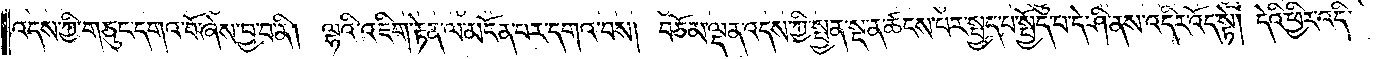འདས་ཀྱི་གཅུང་དགའ་བོ་ཞེས་བྱ་བ་ནི། ལྷའི་འཇིག་རྟེན་ལ་མངོན་པར་དགའ་བས། བཅོམ་ལྡན་འདས་ཀྱི་སྤྱན་སྔ་ན་ཚངས་པར་སྤྱད་པ་སྤྱོད་པ་དེ་ཤི་ནས་འདིར་འོད་སྟེ། དེའི་ཕྱིར་འདི་
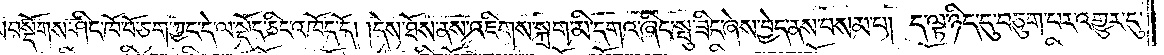བསྡོགས་ཤིང་ཁོ་བོ་ཅག་ཀྱང་དེ་ལ་སྡོད་ཅིང་འཁོད་དོ། །དེས་ཐོས་ནས་འཇིགས་སྐྲག་མི་དགའ་ཞིང་སྤུ་ཟིང་ཞེས་བྱེད་ནས་བསམ་པ། ད་ལྟ་ཉིད་དུ་བཅུག་པར་འགྱུར་དུ་
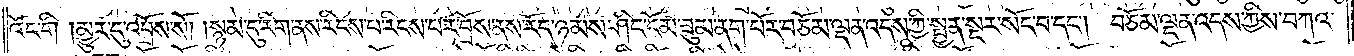འོང་གི །མྱུར་དུ་འབྲོས་སོ། །སྙམ་དུ་རིག་ནས་རིངས་པ་རིངས་པར་བྲོས་ནས་རོད་ཉམས་ཤིང་དོམ་ཟུམ་ནག་པོར་བཅོམ་ལྡན་འདས་ཀྱི་སྤྱན་སྔར་སོང་བ་དང༌། བཅོམ་ལྡན་འདས་ཀྱིས་བཀའ་
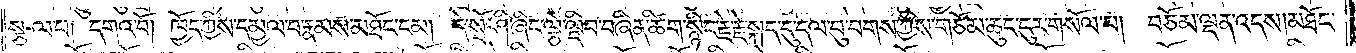སྩལ་པ། དགའ་བོ། ཁྱོད་ཀྱིས་དམྱལ་བ་རྣམས་མཐོང་ངམ། དེ་སྲོ་ཤི་ཞིང་ལྕེ་ལྡིབ་བཞིན་ཚིག་སྙིང་རྗེ་རྗེ་སྐད་དུ་དལ་བུ་བགས་ཀྱིས་གཅོམ་ཆུང་ངུར་གསོལ་པ། བཅོམ་ལྡན་འདས། མཐོང་
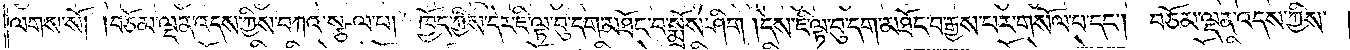ལགས་སོ། །བཅོམ་ལྡན་འདས་ཀྱིས་བཀའ་སྩལ་པ། ཁྱོད་ཀྱིས་དེར་ཇི་ལྟ་བུ་དག་མཐོང་བ་སྨྲོས་ཤིག །དེས་ཇི་ལྟ་བུ་དག་མཐོང་བ་རྒྱས་པར་གསོལ་པ་དང༌། བཅོམ་ལྡན་འདས་ཀྱིས་
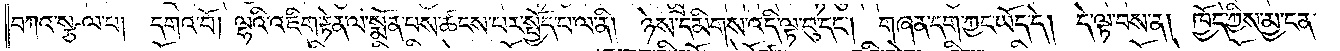བཀའ་སྩལ་པ། དགའ་བོ། ལྷའི་འཇིག་རྟེན་ལ་སྨོན་པས་ཚངས་པར་སྤྱོད་པ་ལ་ནི། ཉེས་དམིགས་འདི་ལྟ་བུ་དང༌། གཞན་དག་ཀྱང་ཡོད་དེ། དེ་ལྟ་བས་ན། ཁྱོད་ཀྱིས་མྱ་ངན་
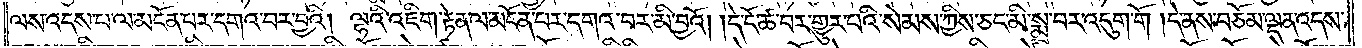ལས་འདས་པ་ལ་མངོན་པར་དགའ་བར་བྱའི། ལྷའི་འཇིག་རྟེན་ལ་མངོན་པར་དགའ་བར་མི་བྱའོ། །དེ་ངོ་ཚ་བར་གྱུར་པའི་སེམས་ཀྱིས་ཅང་མི་སྨྲ་བར་འདུག་གོ །དེ་ནས་བཅོམ་ལྡན་འདས་
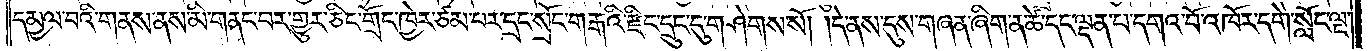དམྱལ་བའི་གནས་ནས་མི་གནང་བར་གྱུར་ཅིང་གྲོང་ཁྱེར་ཙམ་པར་དྲང་སྲོང་ག་རྒའི་རྫིང་དྲུང་དུ་གཤེགས་སོ། །དེ་ནས་དུས་གཞན་ཞིག་ན་ཚེ་དང་ལྡན་པ་དགའ་བོ་འཁོར་དགེ་སློང་ལྔ་
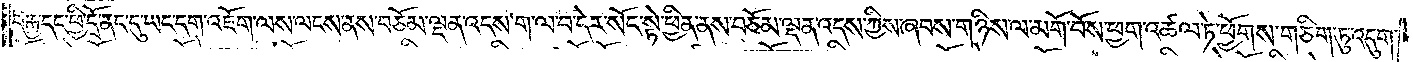བརྒྱ་དང་ཕྱི་དྲོ་ནང་དུ་ཡང་དག་འཇོག་ལས་ལངས་ནས་བཅོམ་ལྡན་འདས་ག་ལ་བ་དེར་སོང་སྟེ་ཕྱིན་ནས་བཅོམ་ལྡན་འདས་ཀྱིས་ཞབས་གཉིས་ལ་མགོ་བོས་ཕྱག་འཚལ་ཏེ་ཕྱོགས་གཅིག་ཏུ་འདུག་
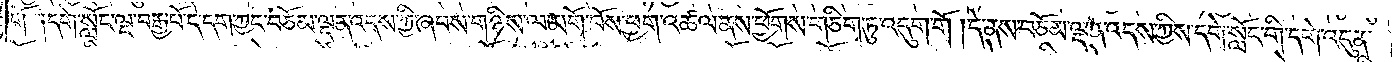གོ །དགེ་སློང་ལྔ་བརྒྱ་པོ་དེ་དག་ཀྱང་བཅོམ་ལྡན་འདས་ཀྱི་ཞབས་གཉིས་ལ་མགོ་བོས་ཕྱག་འཚལ་ནས་ཕྱོགས་གཅིག་ཏུ་འདུག་གོ །དེ་ནས་བཅོམ་ལྡན་འདས་ཀྱིས་དགེ་སློང་གི་དགེ་འདུན་
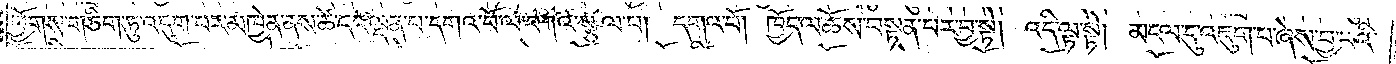ཕྱོགས་གཅིག་ཏུ་འདུག་པར་མཁྱེན་ནས་ཚེ་དང་ལྡན་པ་དགའ་བོ་ལ་བཀའ་སྩལ་པ། དགའ་བོ། ཁྱོད་ལ་ཆོས་བསྟན་པར་བྱ་སྟེ། འདི་ལྟ་སྟེ། མངལ་དུ་འཇུག་པ་ཞེས་བྱ་བའི་
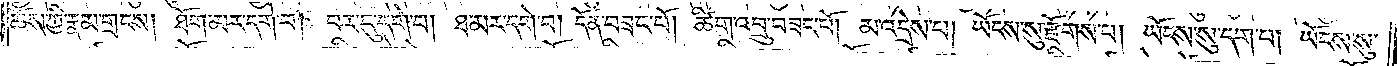ཆོས་ཀྱི་རྣམ་གྲངས། ཐོག་མར་དགེ་བ། བར་དུ་དགེ་བ། ཐ་མར་དགེ་བ། དོན་བཟང་པོ། ཚིག་འབྲུ་བཟང་པོ། མ་འདྲེས་པ། ཡོངས་སུ་རྫོགས་པ། ཡོངས་སུ་དག་པ། ཡོངས་སུ་
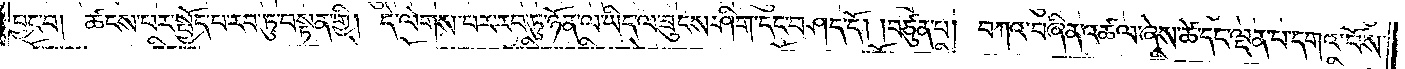བྱང་བ། ཚངས་པར་སྤྱོད་པ་རབ་ཏུ་བསྟན་གྱི། དེ་ལེགས་པར་རབ་ཏུ་ཉོན་ལ་ཡིད་ལ་ཟུངས་ཤིག་དང་བཤད་དོ། །བཙུན་པ། བཀའ་བཞིན་འཚལ་ཞེས་ཚེ་དང་ལྡན་པ་དགའ་བོས་
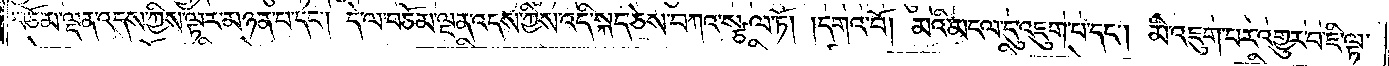བཅོམ་ལྡན་འདས་ཀྱིས་ལྟར་མཉན་པ་དང༌། དེ་ལ་བཅོམ་ལྡན་འདས་ཀྱིས་འདི་སྐད་ཅེས་བཀའ་སྩལ་ཏོ། །དགའ་བོ། མའི་མངལ་དུ་འཇུག་པ་དང༌། མི་འཇུག་པར་འགྱུར་བ་ཇི་ལྟ་
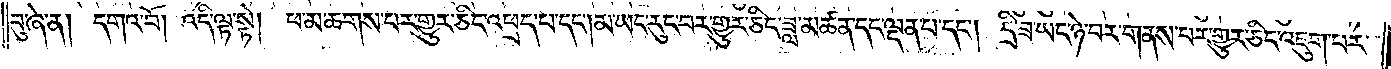བུ་ཞེ་ན། དགའ་བོ། འདི་ལྟ་སྟེ། ཕ་མ་ཆགས་པར་གྱུར་ཅིང་འཕྲད་པ་དང༌། མ་ཡང་རུང་བར་གྱུར་ཅིང་ཟླ་མཚན་དང་ལྡན་པ་དང༌། དྲི་ཟ་ཡང་ཉེ་བར་གནས་པར་གྱུར་ཅིང་འཇུག་པར་
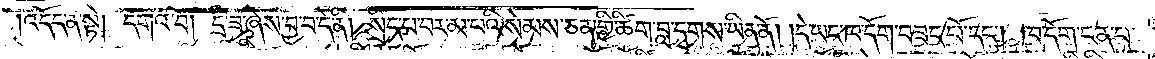འདོད་ན་སྟེ། དགའ་བོ། དྲི་ཟ་ཞེས་བྱ་བ་དེ་ནི། སྲིད་པ་བར་མ་པའི་སེམས་ཅན་གྱི་ཚིག་བླ་དྭགས་ཡིན་ནོ། །དེ་ཡང་ཁ་དོག་བཟང་པོ་དང༌། ཁ་དོག་ངན་པ་
